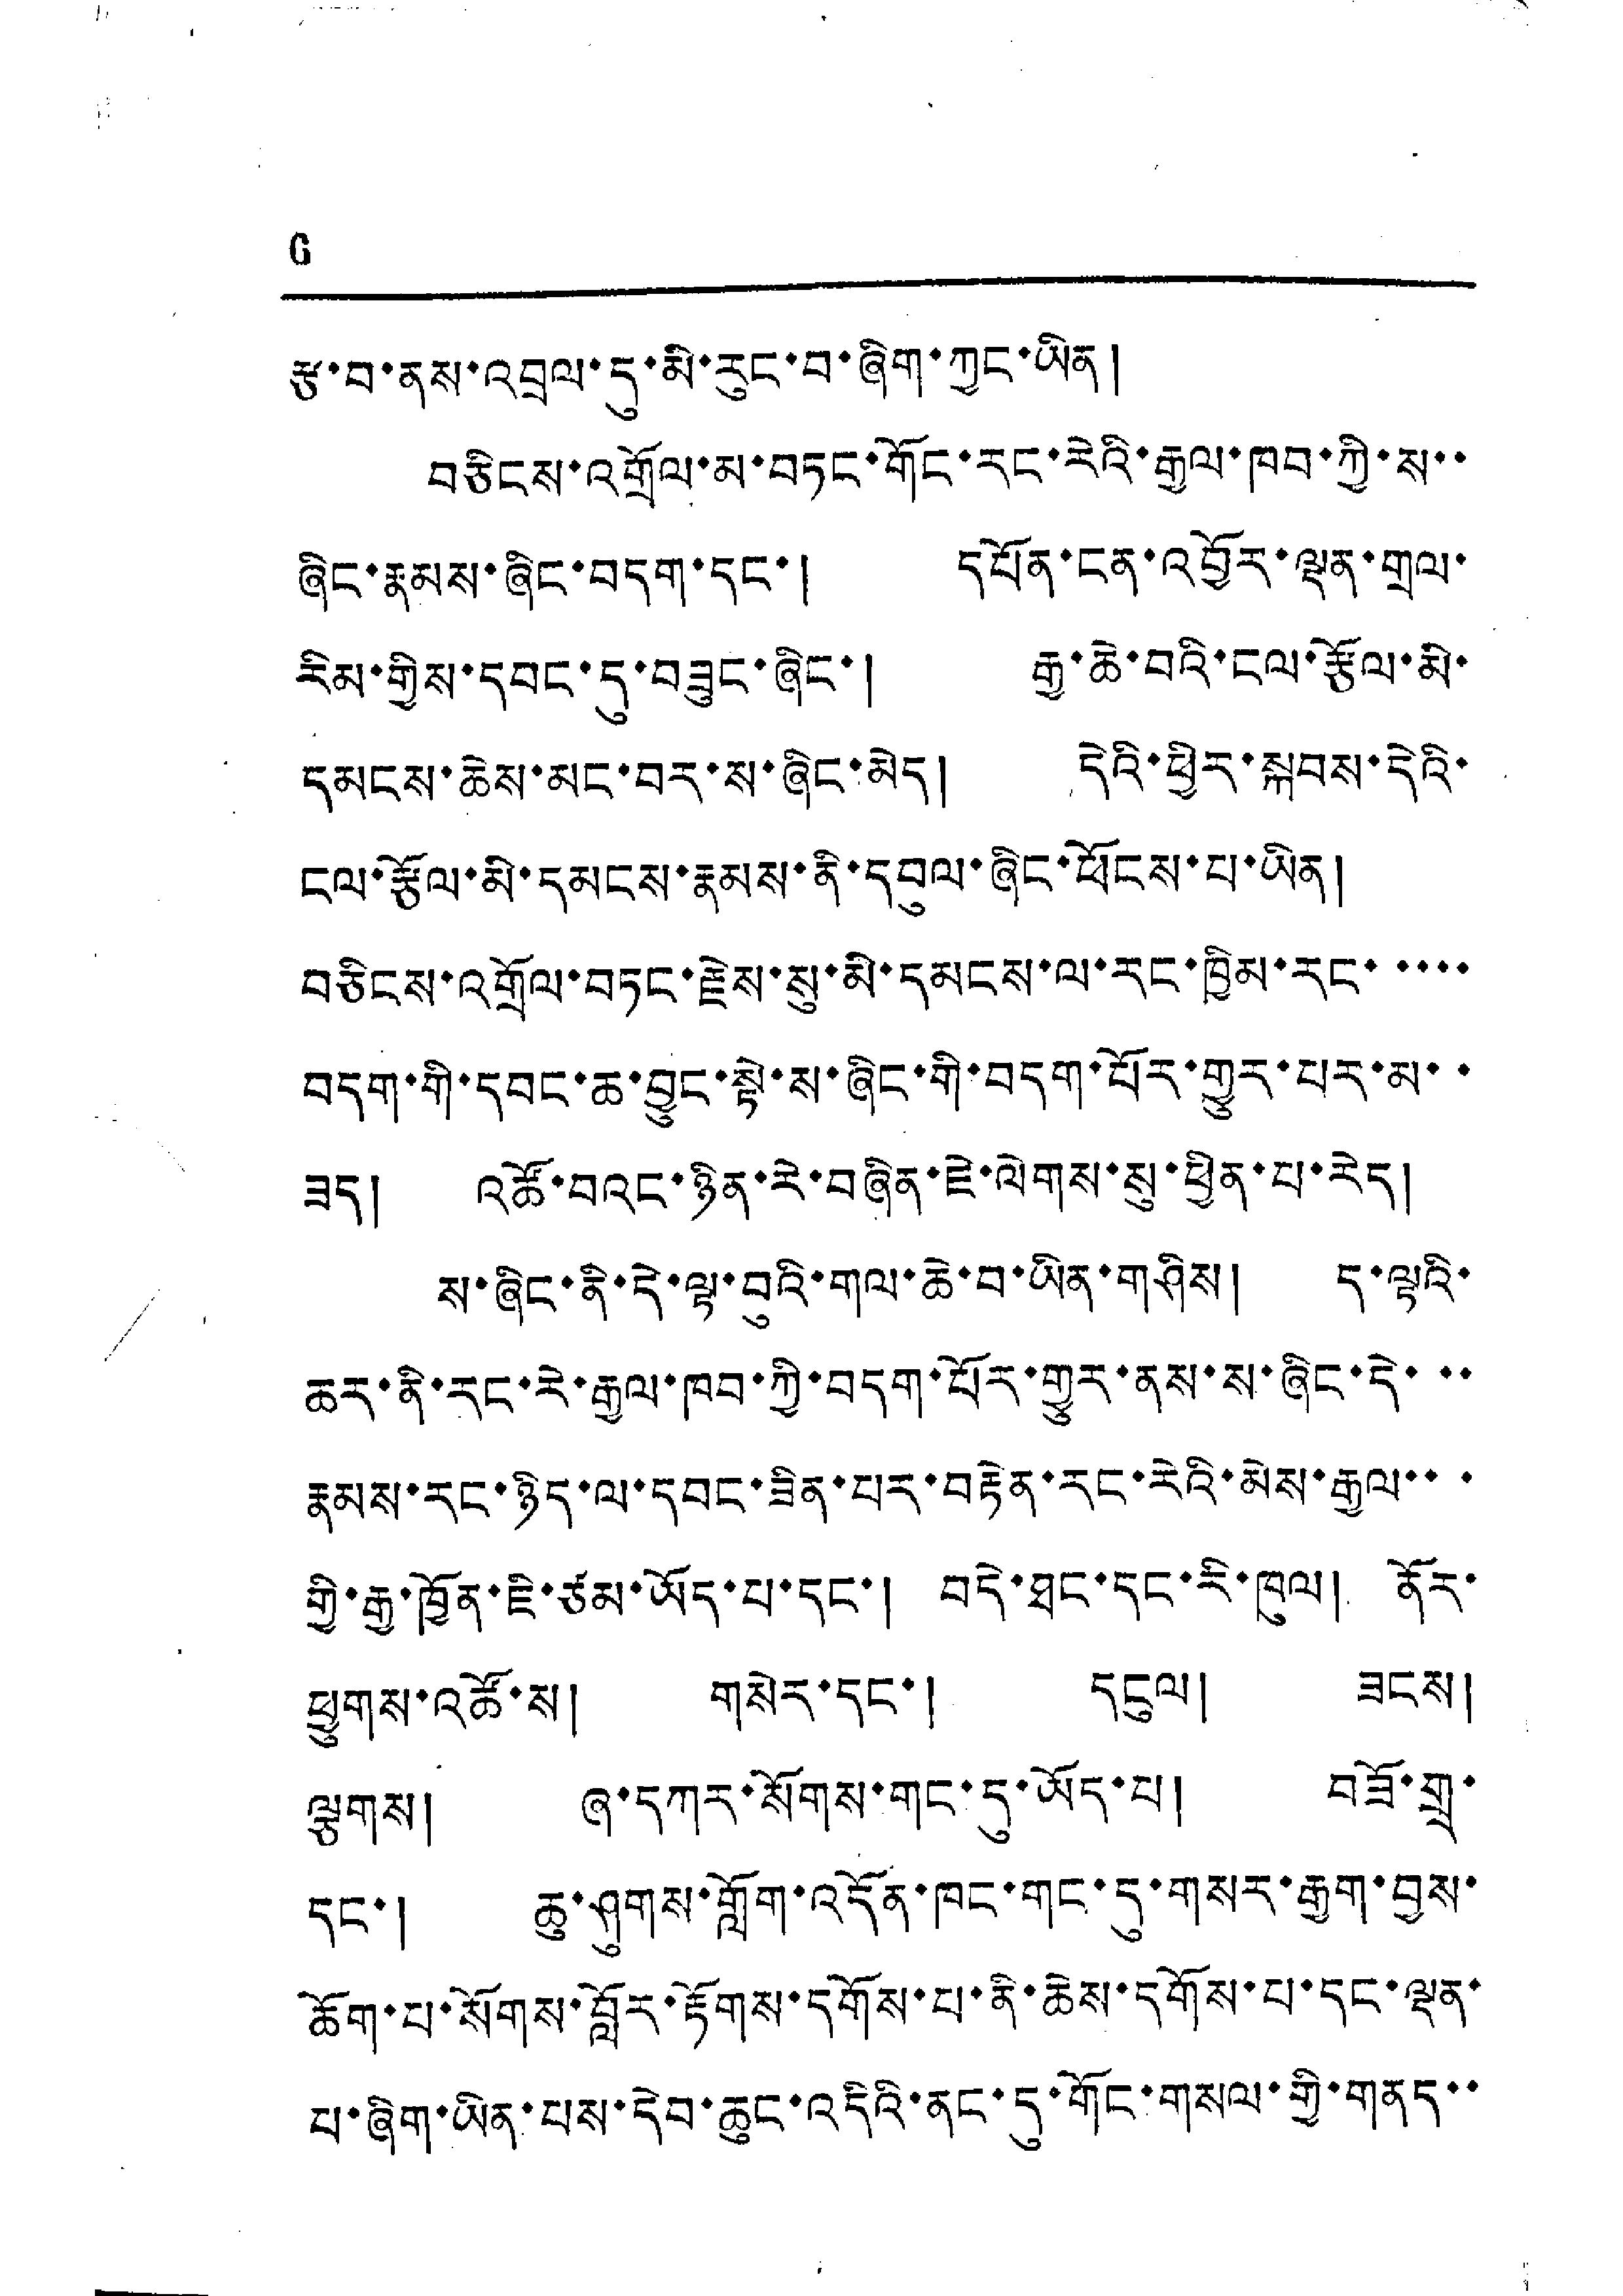6
རྩ་བ་ནས་འབྲལ་དུ་མི་རུང་བ་ཞིག་ཀྱང་ཡིན།
བཅིངས་འགྲོལ་མ་བཏང་གོང་རང་རེའི་རྒྱལ་ཁབ་ཀྱི་ས་་
ཞིང་རྣམས་ཞིང་བདག་དང་། དཔོན་ངན་འབྱོར་ལྡན་གྲལ་
རིམ་གྱིས་དབང་དུ་བཟུང་ཞིང་། རྒྱ་ཆེ་བའི་ངལ་རྩོལ་མི་
དམངས་ཆེས་མང་བར་ས་ཞིང་མེད། དེའི་ཕྱིར་སྐབས་དེའི་
ངལ་རྩོལ་མི་དམངས་རྣམས་ནི་དབུལ་ཞིང་ཕོངས་པ་ཡིན།
བཅིངས་འགྲོལ་བཏང་རྗེས་སུ་མི་དམངས་ལ་རང་ཁྱིམ་རང་་་་་
བདག་གི་དབང་ཆ་བྱུང་སྟེ་ས་ཞིང་གི་བདག་པོར་གྱུར་པར་མ་་
ཟད། འཚོ་བའང་ཉིན་རེ་བཞིན་ཇེ་ལེགས་སུ་ཕྱིན་པ་རེད།
ས་ཞིང་ནི་དེ་ལྟ་བུའི་གལ་ཆེ་བ་ཡིན་གཤིས། ད་ལྟའི་
ཆར་ནི་རང་རེ་རྒྱལ་ཁབ་ཀྱི་བདག་པོར་གྱུར་ནས་ས་ཞིང་དེ་་་
རྣམས་རང་ཉིད་ལ་དབང་ཟིན་པར་བརྟེན་རང་རེའི་མེས་རྒྱལ་་་་
གྱི་རྒྱ་ཁྱོན་ཇི་ཙམ་ཡོད་པ་དང་། བདེ་ཐང་དང་རི་ཁུལ། ནོར་
ཕྱགས་འཚོ་ས། གསེར་དང་། དངུལ། ཟངས།
ལྕགས། ཞ་དཀར་སོགས་གང་དུ་ཡོད་པ། བཟོ་གྲྭ་
དང་། ཆུ་ཤུགས་ཀློག་འདོན་ཁང་གང་དུ་གསར་རྒྱག་བྱས་
ཆོག་པ་སོགས་བློར་རྟོགས་དགོས་པ་ནི་ཆེས་དགོས་པ་དང་ལྡན་
པ་ཞིག་ཡིན་པས་དེབ་ཆུང་འདིའི་ནང་དུ་གོང་གསལ་གྱི་གནད་་
